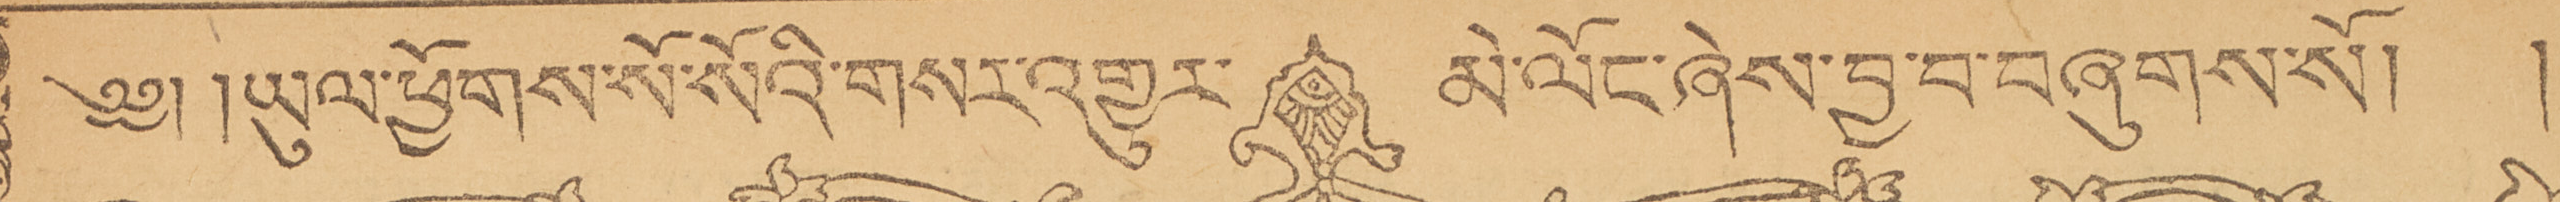༄༅། །ཡུལ་ཕྱོགས་སོ་སོའི་གསར་འགྱུར་ མེ་ལོང་ཞེས་བྱ་བ་བཞུགས་སོ། །
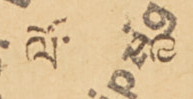ལོ་ ༩
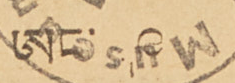ཨང་ ༩
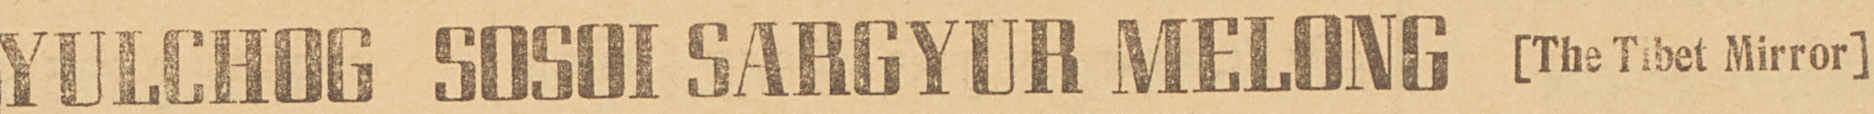YULCHOG SOSOI SARGYUR MELONG [The Tibet Mirror]
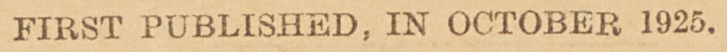FIRST PUBLISHED, IN OCTOBER 1925.
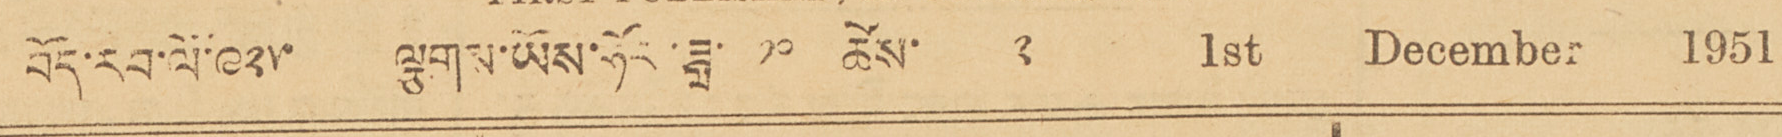བོད་རབ་ལོ་༩༢༥ ལྕགས་ཡོས་ཧོར་ཟླ་ ༡༠ ཚེས་ ༢ 1st December 1951.
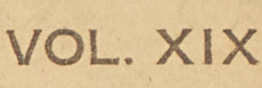VOL. XIX
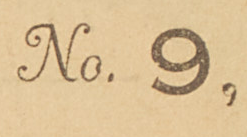No 9,
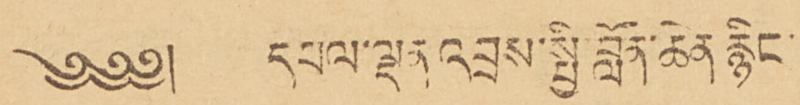༄༅། དཔལ་ལྡན འབྲས་སྤྱི བློན་ཆེན རྙིང་
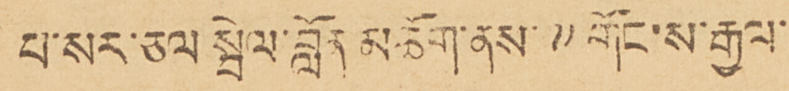པ་སར་ཅལ སྦེལ་བློན མཆོག་ནས་༸གོང་ས་རྒྱལ་
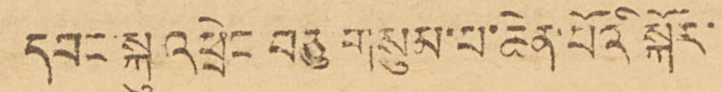དབང་སྐུ་འཕྲེང བཅུ གསུམ་པ་ཆེན་པོའི སྐོར་
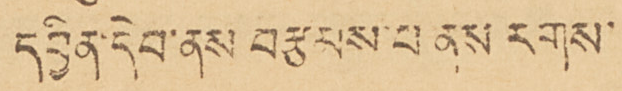དབྱིན་དེབ་ནས བརྩམས་པ ནས རགས་
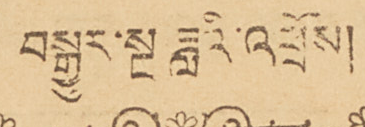བསྒྱུར་སྔ ཟླའི་འཕྲོས།།
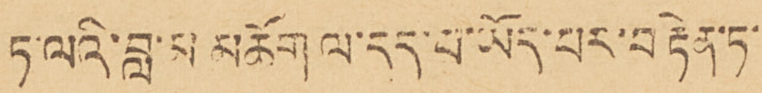ཏཱ་ལའི་བླ་མ མཆོག ལ་དད་པ་ཡོད་པར་བརྟེན་ཏ་
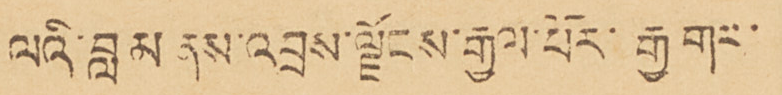ལའི་བླ མ ནས་འབྲས་ལྗོངས་རྒྱལ་པོར་རྒྱ གར་
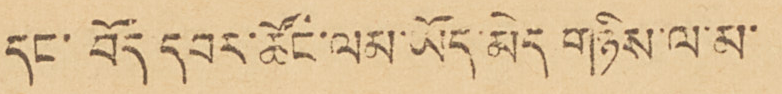དང་བོད དབར་ཚོང་ལམ་ཡོད་མེད་གཉིས་ལ་མ་
